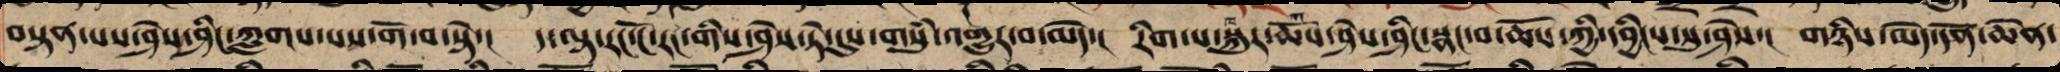བསྟན་པས་ཤེས་ཤིང་ཀླགས་པས་གོ་བ་སྟེ། ད་ལྟ་རང་ངོ་རང་གིས་ཤེས་ཏེ་དུས་གསུམ་འགྱུར་བ་མེད། རིག་པ་ཆོས་སྐུར་ཤེས་ཤིང་སྣང་བ་ཆོས་ཀྱི་དབྱིངས་སུ་ཤེས། གཉིས་མེད་དོན་ཆེན་
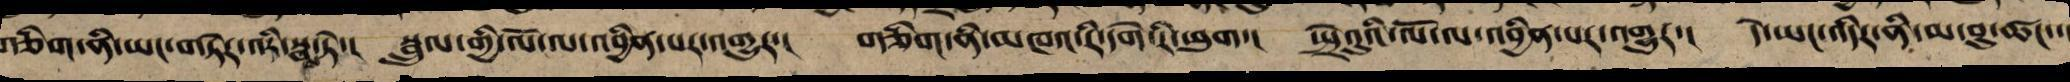གཅིག་ནི་ཡང་གཏེར་འདིར་སྦས་སོ། སྦྲུལ་གྱི་ལོ་ལ་འབྱིན་པར་འགྱུར། གཅིག་ནི་མཁའ་རི་དགེ་རི་ཕུག སྤྲེའུའི་ལོ་ལ་འབྱིན་པར་འགྱུར། དེ་ཡང་འདིར་ནི་མ་བུ་ཚངས
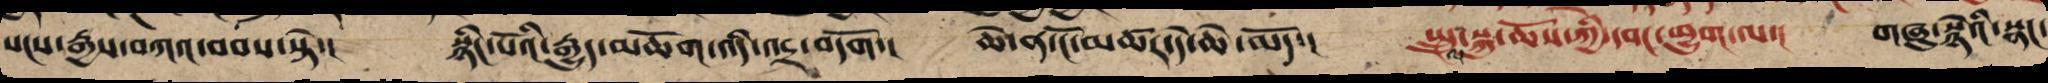སངས་རྒྱས་བཀའ་བབས་ཏེ། སྙིང་པོའི་རྒྱུད་མཆོག་འདི་འདྲ་བདོག །ཆེ་ན་ངོ་མཚར་དེ་ཆེ་མོད། སྤྲུལ་སྐུ་ཆོས་ཀྱི་དབང་ཕྱུག་ལ་།   གཞུ་སྙིའི་སྣག་
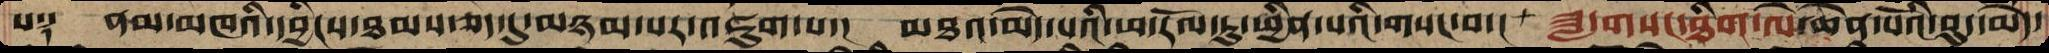པ༑  ནམ་མཁའི་དབྱིངས་ཐམས་ཅད་དུ་མཉམ་པར་འཇུག་པ་།  མཐའ་མེད་པའི་ཕ་རོལ་ཏུ་ཕྱིན་པའི་གསང་བ་།  ཟླ་གསང་ཐིག་ལེ་ཆེན་པོའི་བུད་མེད་
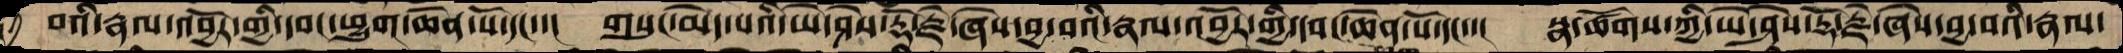བའི་རྣལ་འབྱོར་གྱི་དབང་ཕྱུག་ཆེན་པོ་དང་་།  གསུང་མེད་པའི་ཡེ་ཤེས་རྡོ་རྗེ་ཞེས་བྱ་བའི་རྣལ་འབྱོར་གྱི་དབང་ཆེན་པོ་དང་་།  སྣ་ཚོགས་ཀྱི་ཡེ་ཤེས་རྡོ་རྗེ་ཞེས་བྱ་བའི་རྣལ་
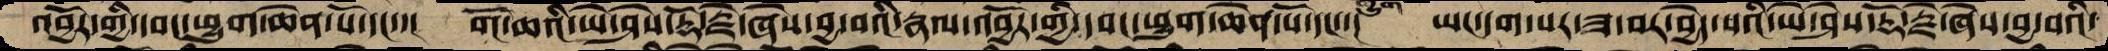འབྱོར་གྱི་དབང་ཕྱུག་ཆེན་པོ་དང་་།  གོ་ཆའི་ཡེ་ཤེས་རྡོ་རྗེ་ཞེས་བྱ་བའི་རྣལ་འབྱོར་གྱི་དབང་ཕྱུག་ཆེན་པོ་དང་་།  ཡང་དག་པར་ཟ་བར་བྱེད་པའི་ཡེ་ཤེས་རྡོ་རྗེ་ཞེས་བྱ་བའི་
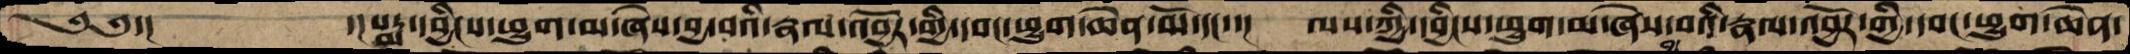༄༅་།    ་།པདྨ་དབྱིངས་ཕྱུག་མ་ཞེས་བྱ་བའི་རྣལ་འབྱོར་གྱི་དབང་ཕྱུག་ཆེན་མོ་དང་་། ལས་ཀྱིི་དབྱིངས་ཕྱུག་མ་ཞེས་བྱ་བའི་རྣལ་འབྱོར་གྱི་དབང་ཕྱུག་ཆེན་
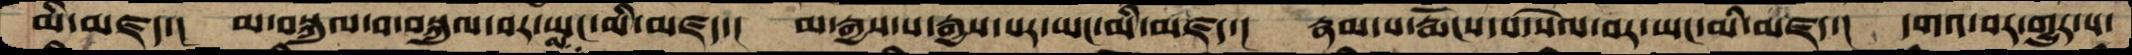མི་མཛད་།  མ་བསྐུལ་བ་བསྐུལ་བར་ཡང་མི་མཛད་།  མ་རྒྱས་པ་རྒྱས་པར་ཡང་མི་མཛད་།  རྣམ་པ་རྨོངས་པ་སེལ་བར་ཡང་མི་མཛད་།  དགའ་བར་གྱུར་པ་
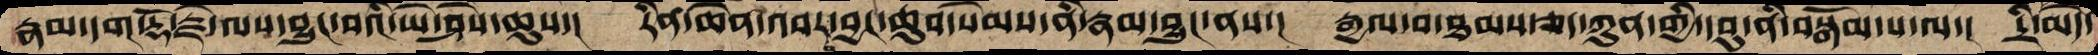རྣམ་དག་རྡོ་རྗེ་ལས་བྱུང་བའི་ཡེ་ཤེས་ཆུས་།  རིན་ཆེན་འབར་བ་བྱང་ཆུབ་སེམས་ནི་རྣམ་བྱུང་ནས་། རྒྱལ་བ་ཐམས་ཅད་ཀུན་གྱི་དབུ་ནི་བསྒོམ་པ་ལ་།  དྲི་མེད་
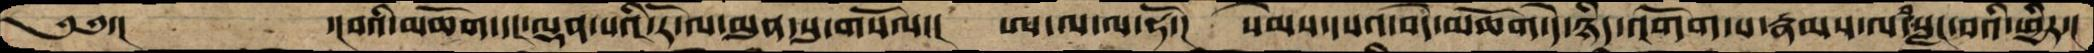༄༅་།   ་།བའི་མཆོག་དང་ལྡན་པའི་རོ་ལ་མུན་སུ་གསོལ་།  ཨ་ལ་ལ་ཧོ་།  སེམས་དཔའ་བདེ་མཆོག་དེ་ཉིད་འགོག་པ་རྣམས་ལ་བསླང་བའི་ཕྱིར་།
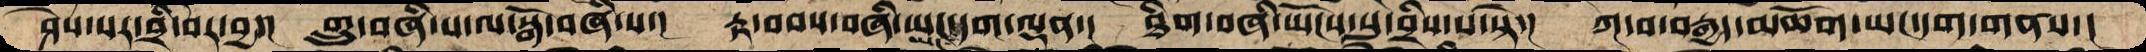ཤེས་པར་བྲི་བར་བྱ་།  གྲུ་བཞི་པ་ལ་སྒོ་བཞི་པ་།  རྟ་བབས་བཞི་ཡང་ཡང་དག་ལྡན་།  ཐིག་བཞི་ཡོངས་སུ་བྲིས་པ་སྟེ་།  ཀ་བ་བརྒྱད་མཆོག་ཡང་དག་གནས་།
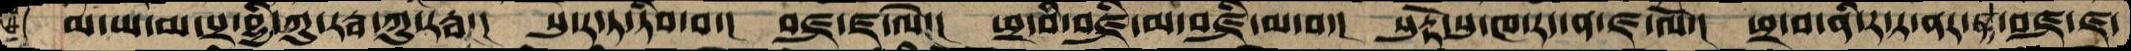མ་ཡ་མ་པྲ་བྷྱི་ཀུ་རརྦ་ཀུ་རརྦ་།  སུ་ར་ཏ་ཏིབ་བ་།  བཛྲ་ཛ་ལེ་།  ཕྲ་བཾ་བཛྲི་མ་བཛྲི་མ་བ་།  སརྟོ་སུ་ཁ་རད་ན་ཛ་ལོ་།  ཕྲ་བ་ནི་ར་ཏ་ནར་ཧ་བཛྲ་ཛ་
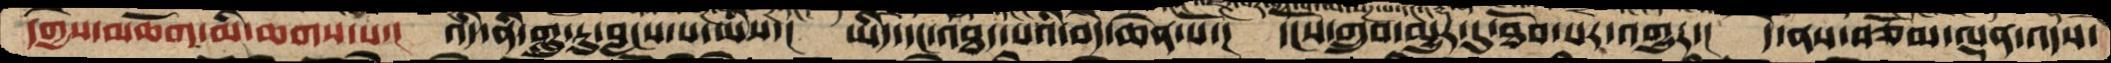དགྱེས་མཆོག་མི་ཆགས་པ་།  འདི་ནི་གླུ་རུ་བླངས་པ་ཡིས་།  ཡིད་དང་འཐད་པའི་བདེ་ཆེན་པོ་།  དངོས་གྲུབ་མྱུར་དུ་ཐོབ་པར་འགྱུར་།  དེ་ནས་བཅོམ་ལྡན་འདས་
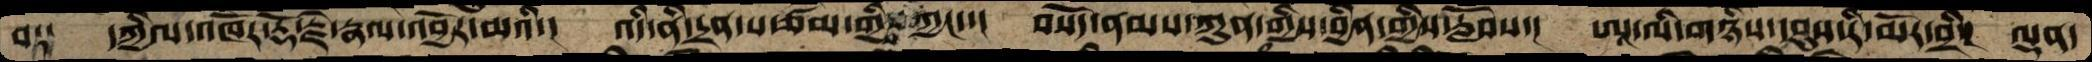བ༑  དཀྱིལ་འཁོར་རྗོ་རྗེ་རྣལ་འབྱོར་མའི་།  འདི་ནི་དྲན་པ་ཙམ་གྱིས་ཀྱང་་།  བསོད་ནམས་ཀུན་གྱིས་བྱིན་གྱིས་རློབས་།  ཨཱ་ལི་གཉིས་དབུས་རི་མོར་བྲིས་།  ལྡན་
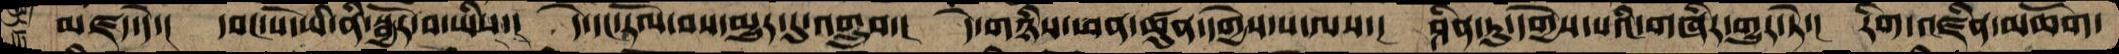མཛད་དེ་། དབང་པོ་ཡི་ནི་སྦྱོར་བ་ཡིས་།  དེ་དངསྟོལ་བས་མྱུར་དུ་འགྲུབ་།  དེ་གཉིས་ཕན་ཚུན་དགྱེས་པ་ལས་།  ཤིན་ཏུ་དགྱེས་པའི་གཞིར་གྱུར་ཏེ་།  རིག་འཛིན་མཆོག་
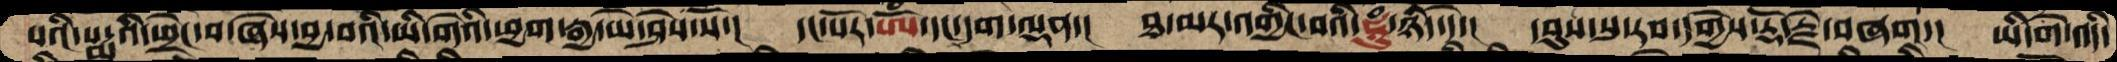པའི་པདྨའི་ཕྲེང་བ་ཞེས་བྱ་བའི་ཡི་གེའི་ཕྱག་རྒྱ་ཡེ་ཤེས་སོ་།  དང་པོར་ཨོྃ་དང་དག་ལྡན་།  ཐ་མར་འགྱིང་བའི་ཧཱུཾ་ཉིད་དེ་།  དབུས་སུ་རབ་དགྱེས་རྡོ་རྗེ་བཞག་།  ཡི་གེ་འདི་
